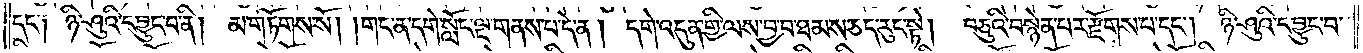དང་༑ ཉི་ཤུའི་དབྱུང་བ་ནི། མ་གཏོགས་སོ། །གང་ན་དགེ་སློང་ལྔ་གནས་པ་དེ་ན། དགེ་འདུན་གྱི་ལས་བྱ་བ་ཐམས་ཅད་རུང་སྟེ།. བཅུའི་བསྙེན་པར་རྫོགས་པ་དང༌། ཉི་ཤུའི་དབྱུང་བ་
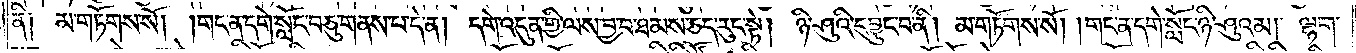ནི༑ མ་གཏོགས་སོ། །གང་ན་དགེ་སློང་བཅུ་གནས་པ་དེ་ན། དགེ་འདུན་གྱི་ལས་བྱ་བ་ཐམས་ཅད་རུང་སྟེ། ཉི་ཤུའི་དབྱུང་བ་ནི། མ་གཏོགས་སོ། །གང་ན་དགེ་སློང་ཉི་ཤུའམ། ལྷག་
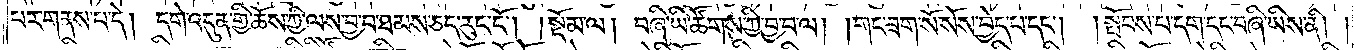པར་གནས་པ་དེ། དགེ་འདུན་གྱི་ཆོས་ཀྱི་ལས་བྱ་བ་ཐམས་ཅད་རུང་ངོ༌། །སྡོམ་ལ། བཞི་ཡི་ཚོགས་ཀྱི་བྱ་བ་ལ། །གང་ཟག་སོ་སོས་བྱེད་པ་དང༌། །སྤོབས་པ་དག་དང་བཞི་ཡིས་ནི། །
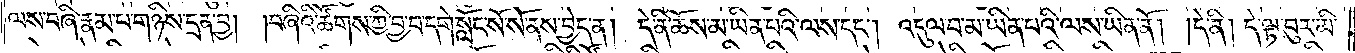ལས་བཞི་རྣམ་པ་གཉིས་དྲན་བྱ། །བཞིའི་ཚོགས་ཀྱི་བྱ་བ་དགེ་སློང་སོ་སོ་ནས་བྱེད་ན། དེ་ནི་ཆོས་མ་ཡིན་པའི་ལས་དང༌། འདུལ་བ་མ་ཡིན་པའི་ལས་ཡིན་ནོ། །དེ་ནི། དེ་ལྟ་བུར་མི་
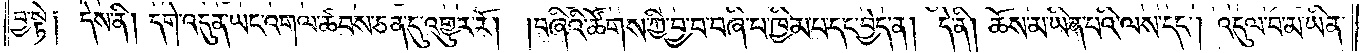བྱ་སྟེ༑ དེས་ནི། དགེ་འདུན་ཡང་འགལ་ཚབས་ཅན་དུ་འགྱུར་རོ། །བཞིའི་ཚོགས་ཀྱི་བྱ་བ་བཞི་བ་ཁྱིམ་པ་དང་བྱེད་ན། དེ་ནི། ཆོས་མ་ཡིན་པའི་ལས་དང༌། འདུལ་བ་མ་ཡིན་
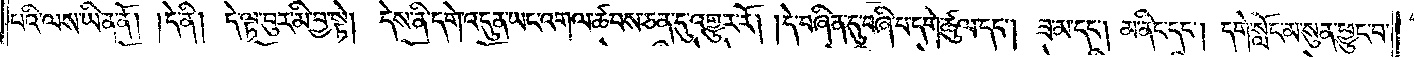པའི་ལས་ཡིན་ནོ། །དེ་ནི། དེ་ལྟ་བུར་མི་བྱ་སྟེ། དེས་ནི་དགེ་འདུན་ཡང་འགལ་ཚབས་ཅན་དུ་འགྱུར་རོ། །དེ་བཞིན་དུ་བཞི་པ་དགེ་ཚུལ་དང༌། ཟ་མ་དང༌། མ་ནིང་དང༌། དགེ་སློང་མ་སུན་ཕྱུང་བ་
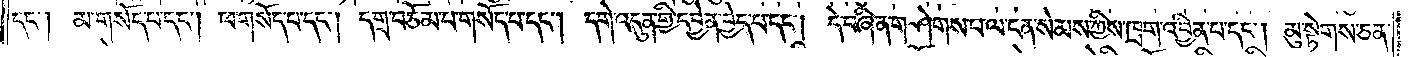དང༌། མ་གསོད་པ་དང༌། ཕ་གསོད་པ་དང༌། དགྲ་བཅོམ་པ་གསོད་པ་དང༌། དགེ་འདུན་གྱི་དབྱེན་བྱེད་པ་དང༌། དེ་བཞིན་གཤེགས་པ་ལ་ངན་སེམས་ཀྱིས་ཁྲག་འབྱིན་པ་དང༌། མུ་སྟེགས་ཅན་
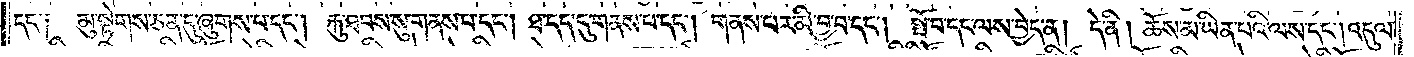དང་༑ མུ་སྟེགས་ཅན་དུ་ཞུགས་པ་དང༌། རྐུ་ཐབས་སུ་གནས་པ་དང༌། ཐ་དད་དུ་གནས་པ་དང༌། གནས་པར་མི་བྱ་བ་དང༌། སྤོ་བ་དང་ལས་བྱེད་ན། དེ་ནི། ཆོས་མ་ཡིན་པའི་ལས་དང༌། འདུལ་
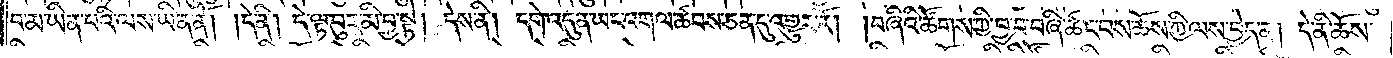བ་མ་ཡིན་པའི་ལས་ཡིན་ནོ། །དེ་ནི། དེ་ལྟ་བུར་མི་བྱ་སྟེ། དེས་ནི། དགེ་འདུན་ཡང་འགལ་ཚབས་ཅན་དུ་འགྱུར་རོ། །བཞིའི་ཚོགས་ཀྱི་བྱ་བ་བཞི་ཚང་བས་ཆོས་ཀྱི་ལས་བྱེད་ན། དེ་ནི་ཆོས་
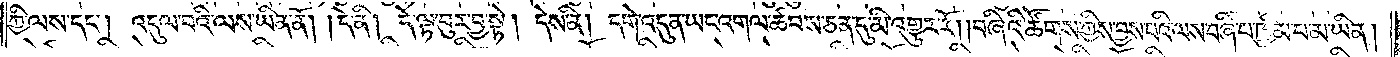ཀྱི་ལས་དང༌། འདུལ་བའི་ལས་ཡིན་ནོ། །དེ་ནི། དེ་ལྟ་བུར་བྱ་སྟེ། དེས་ནི། དགེ་འདུན་ཡང་འགལ་ཚབས་ཅན་དུ་མི་འགྱུར་རོ། །བཞིའི་ཚོགས་ཀྱིས་བྱས་པའི་ལས་བཞི་པ་ཁྱིམ་པ་མ་ཡིན།
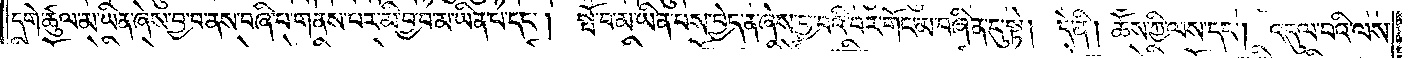དགེ་ཚུལ་མ་ཡིན་ཞེས་བྱ་བ་ནས་བཞི་པ་གནས་པར་མི་བྱ་བ་མ་ཡིན་པ་དང༌། སྤོ་བ་མ་ཡིན་པས་བྱེད་ན་ཞེས་བྱ་བའི་བར་གོང་མ་བཞིན་དུ་སྟེ། དེ་ནི། ཆོས་ཀྱི་ལས་དང༌། འདུལ་བའི་ལས་
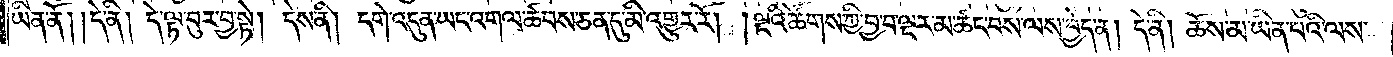ཡིན་ནོ། །དེ་ནི། དེ་ལྟ་བུར་བྱ་སྟེ། དེས་ནི། དགེ་འདུན་ཡང་འགལ་ཚབས་ཅན་དུ་མི་འགྱུར་རོ། །ལྔའི་ཚོགས་ཀྱི་བྱ་བ་ལྔར་མ་ཚང་བས་ལས་བྱེད་ན། དེ་ནི། ཆོས་མ་ཡིན་པའི་ལས་
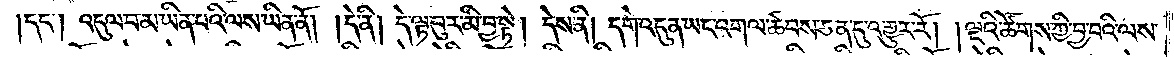དང༌། འདུལ་བ་མ་ཡིན་པའི་ལས་ཡིན་ནོ། །དེ་ནི། དེ་ལྟ་བུར་མི་བྱ་སྟེ། དེས་ནི། དགེ་འདུན་ཡང་འགལ་ཚབས་ཅན་དུ་འགྱུར་རོ། །ལྔའི་ཚོགས་ཀྱི་བྱ་བའི་ལས་
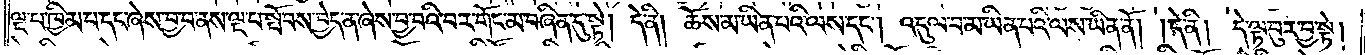ལྔ་པ་ཁྱིམ་པ་དང་ཞེས་བྱ་བ་ནས་ལྔ་པ་སྤོབས་བྱེད་ན་ཞེས་བྱ་བའི་བར་གོང་མ་བཞིན་དུ་སྟེ། དེ་ནི། ཆོས་མ་ཡིན་པའི་ལས་དང༌། འདུལ་བ་མ་ཡིན་པའི་ལས་ཡིན་ནོ། །དེ་ནི། དེ་ལྟ་བུར་བྱ་སྟེ།
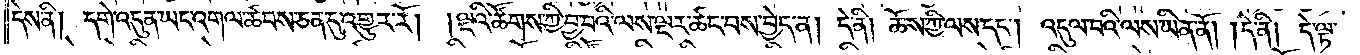དེས་ནི། དགེ་འདུན་ཡང་འགལ་ཚབས་ཅན་དུ་འགྱུར་རོ། །ལྔའི་ཚོགས་ཀྱི་བྱ་བའི་ལས་ལྔར་ཚང་བས་བྱེད་ན། དེ་ནི། ཆོས་ཀྱི་ལས་དང༌། འདུལ་བའི་ལས་ཡིན་ནོ། །དེ་ནི། དེ་ལྟ་
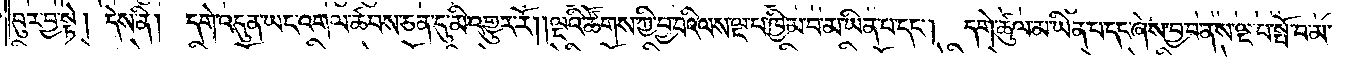བུར་བྱ་སྟེ། དེས་ནི། དགེ་འདུན་ཡང་འགལ་ཚབས་ཅན་དུ་མི་འགྱུར་རོ། །ལྔའི་ཚོགས་ཀྱི་བྱ་བའི་ལས་ལྔ་པ་ཁྱིམ་པ་མ་ཡིན་པ་དང༌། དགེ་ཚུལ་མ་ཡིན་པ་དང་ཞེས་བྱ་བ་ནས་ལྔ་པ་སྤོ་བ་མ་
